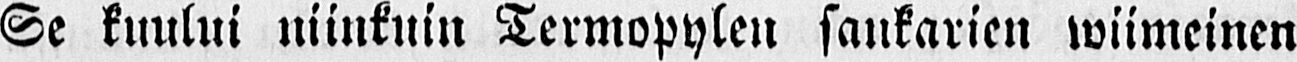Se kuului niinkuin Termopylen sankarien wiimeinen
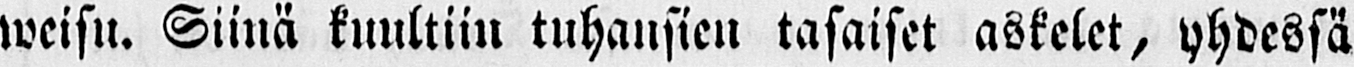weisu. Siinä kuultiin tuhansien tasaiset askelet, yhdessä
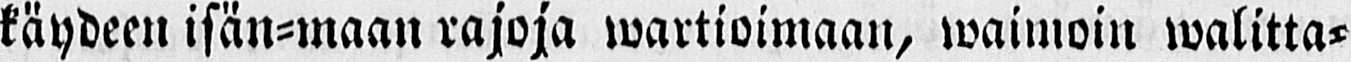käydeen isän-maan rajoja wartioimaan, waimoin walitta-
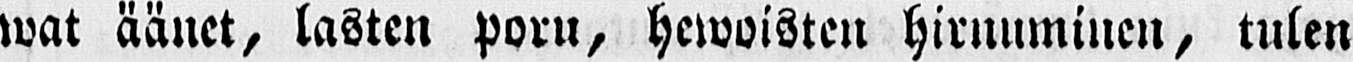wat äänet, lasten poru, hewoisten hirnuminen, tulen
